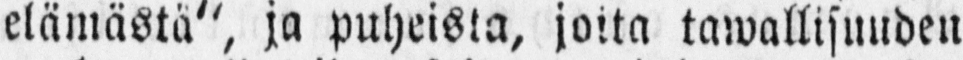elämästä", ja puheista, joita tawallisuuden
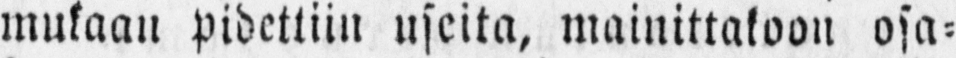mukaan pidettiin useita, mainittakoon osa-
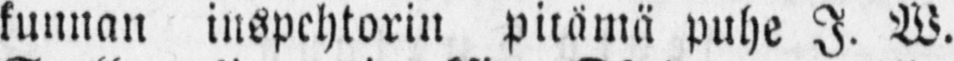kunnan inspehtorin pitämä puhe J. W.
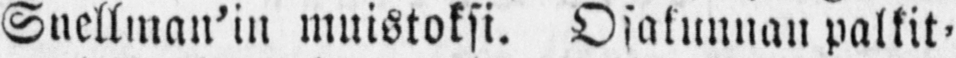Snellman'in muistoksi. Osakunnan palkit-
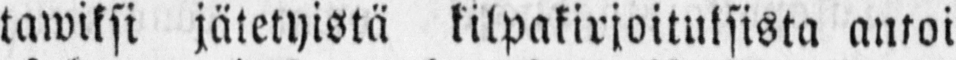tawiksi jätetyistä kilpakirjoituksista antoi
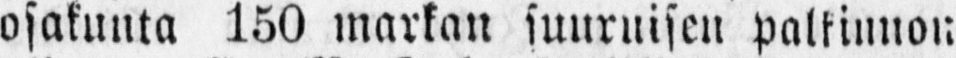osakunta 150 markan suuruisen palkinnon
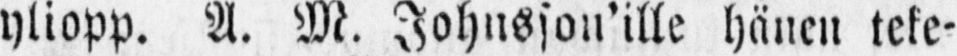yliopp. A. M. Johnsson'ille hänen teke-
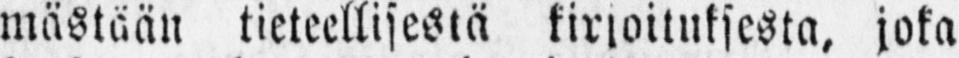mästään tieteellisestä kirjoituksesta, joka
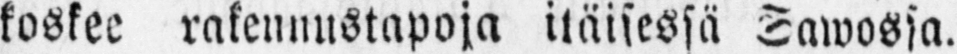koskee rakennustapoja itäisessä Sawossa.
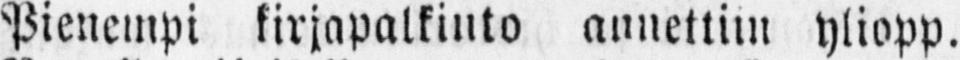Pienempi kirjapalkinto annettiin yliopp.
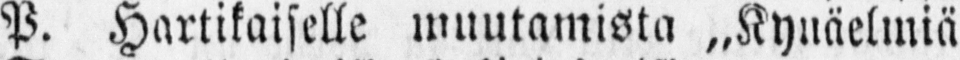P. Hartikaiselle muutamista „Kynäelmiä
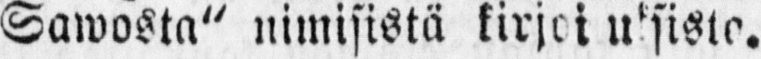Sawosta" nimisistä kirjoituksista.
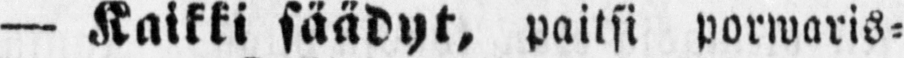— Kaikki säädyt, paitsi porwaris-
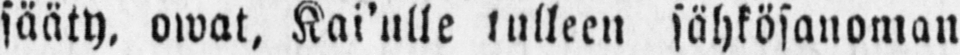sääty, owat, Kai'ulle tulleen sähkösanoman
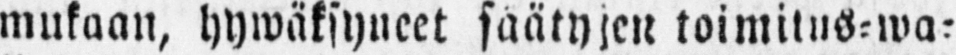mukaan, hywäksyneet säätyjen toimitus-wa-
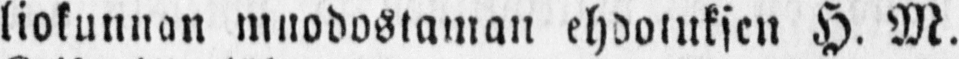liokunnan muodostaman ehdoiuksen H. M.
